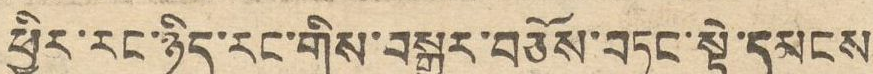ཕྱིར་རང་ཉིད་རང་གིས་བསྒྱུར་བཅོས་བཏང་སྟེ་དམངས
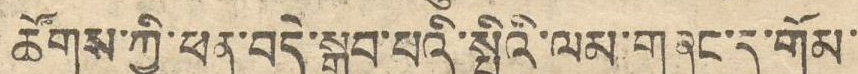ཚོགས་ཀྱི་ཕན་བདེ་སྒྲུབ་པའི་སྤྱིའི་ལམ་གཞུང་དུ་གོམ་
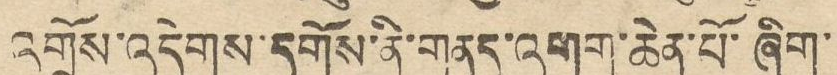འགྲོས་འདེགས་དགོས་ནི་གནད་འགག་ཆེན་པོ་ཞིག་
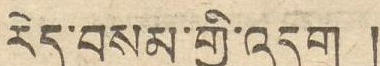རེད་བསམ་གྱི་འདུག །
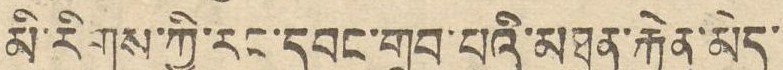མི་རིགས་ཀྱི་རང་དབང་གྲུབ་པའི་མཐུན་རྐྱེན་མེད་
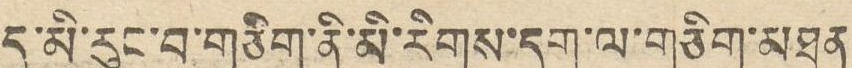དུ་མི་རུང་བ་གཅིག་ནི་མི་རིགས་དག་ལ་གཅིག་མཐུན
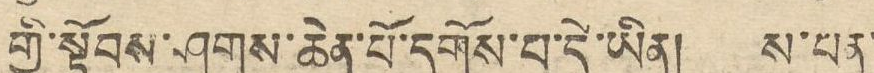གྱི་སྟོབས་ཤུགས་ཆེན་པོ་དགོས་བ་དེ་ཡིན། ས་པན་
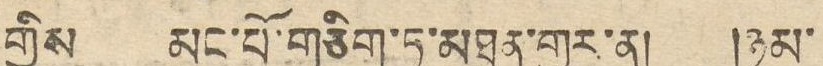གྱིས མང་པོ་གཅིག་ཏུ་མཐུན་གྱུར་ན། །ཉམ་
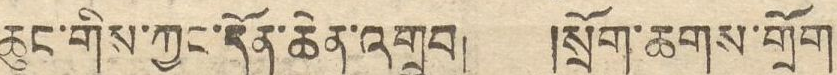ཆུང་གིས་ཀྱང་དོན་ཆེན་འགྲུབ། །སྲོག་ཆགས་གྲོག
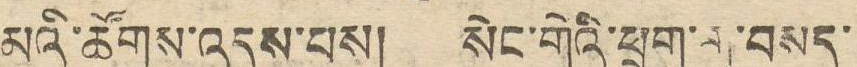མའི་ཚོགས་འདུས་པས། སེང་གེའི་ཕྲུག་གུ་བསད་
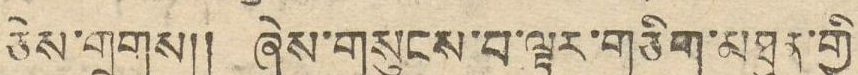ཅེས་གྲགས།། ཞེས་གསུངས་བ་ལྟར་གཅིག་མཐུན་གྱི
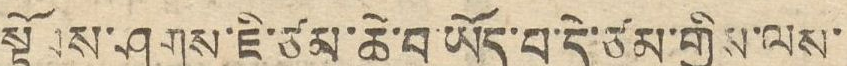སྟོབས་ཤུགས་ཇི་ཙམ་ཆེ་བ་ཡོད་བ་དེ་ཙམ་གྱིས་ལས་
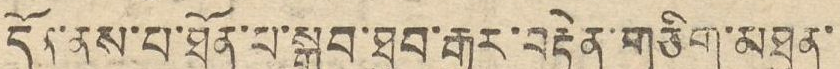དོན་ནུས་པ་ཐོན་པ་སྒྲུབ་ཐུབ་རྒྱུར་བརྟེན་གཅིག་མཐུན་
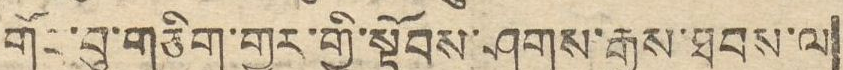གོང་བུ་གཅིག་གྱུར་གྱི་སྟོབས་ཤུགས་རྒྱས་ཐབས་ལ་
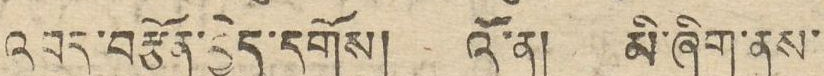འབད་བརྩོན་བྱེད་དགོས། འོ་ན། མི་ཞིག་ནས་
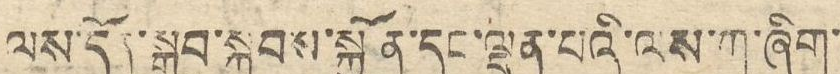འས་དོན་སྒྲུབ་སྐབས་སྐྱོན་དང་ལྡན་པའི་ལས་ཀ་ཞིག་
